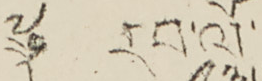༈ རབ་ལོ་
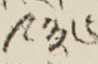༩༣༦
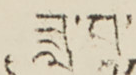ཟླ་བ་
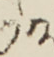༡༢
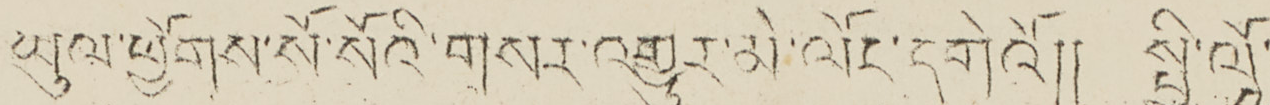ཡུལ་ཕྱོགས་སོ་སོའི་གསར་འགྱུར་མེ་ལོང་དགེའོ།། སྤྱི་ལོ་
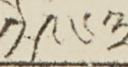༡༩༦༣
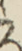༢
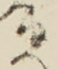༣
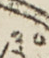༣༠
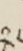༢༠
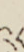༢༨
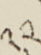༢༢
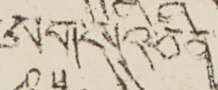ཨག་སའི་ཅིན་
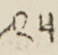༢༥
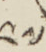༢༧
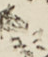༢༣
